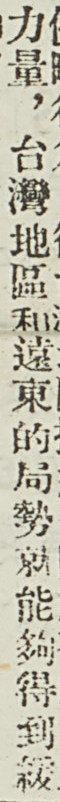力量，台灣地區和遠東的局勢就能夠得到緩
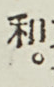和。
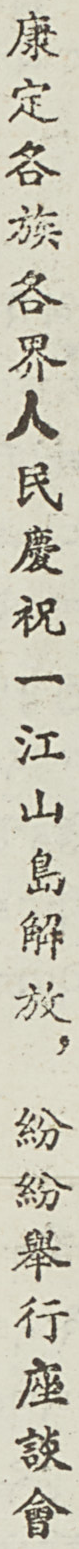康定各族各界人民慶祝一江山島解放，紛紛舉行座談會
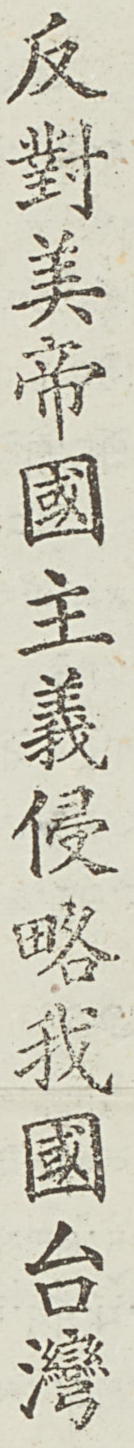反對美帝國主義侵略我國台灣
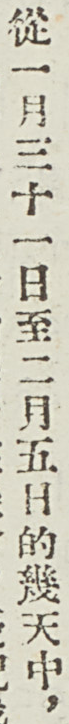從一月三十一日至二月五日的幾天中，
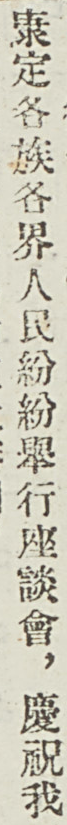康定各族各界人民紛紛舉行座談會，慶祝我
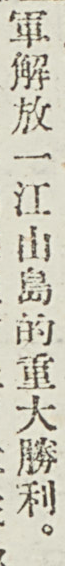軍解放一江山島的重大勝利。
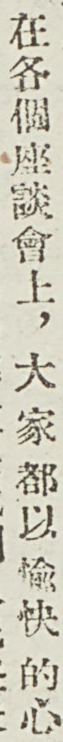在各個座談會上，大家都以愉快的心
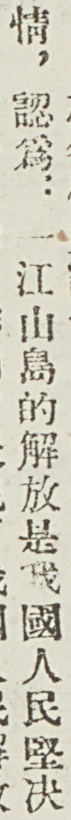情，認爲：一江山島的接反是我國人民堅決
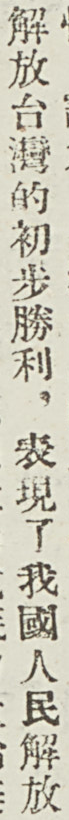解放台灣的初步勝利，表現了我國人民解放
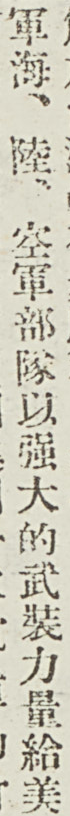軍海、陸、空軍部隊以強大的武裝力量給美
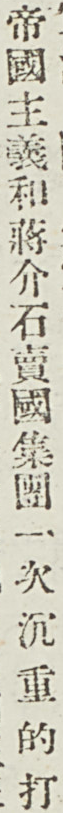帝國主義和蔣介石賣國集團一次沉重的打
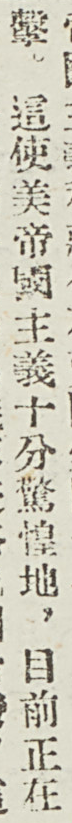擊。這使美帝國主義十分驚惶地，目前正在
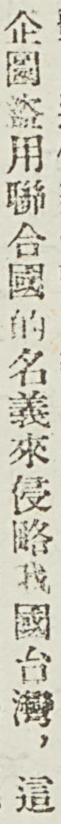企圖盜用聯合國的名義來侵略我國台灣，這
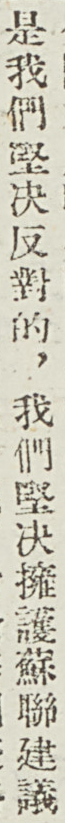是我們堅決反對的，我們堅決擁護蘇聯建議
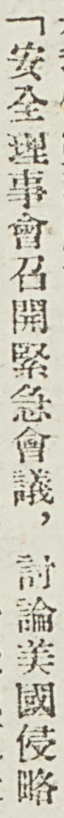「安全理事會召開緊急會議，討論美國侵略
